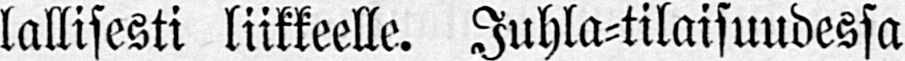lallisesti liikkeelle. Juhla-tilaisuudessa
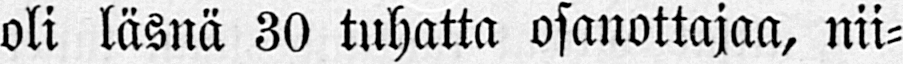oli läsnä 30 tuhatta osanottajaa, nii-
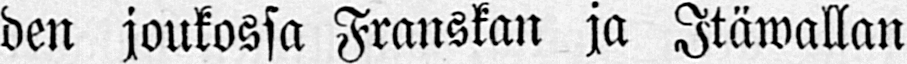den joukossa Franskan ja Itäwallan
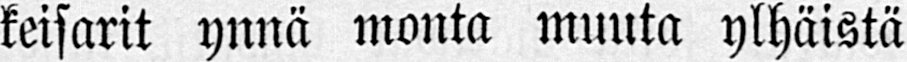keisarit ynnä monta muuta ylhäistä
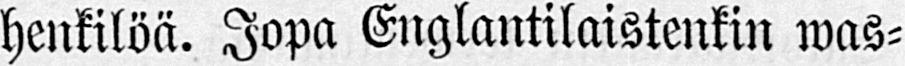henkilöä. Jopa Englantilaistenkin was-
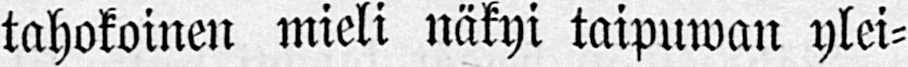tahokoinen mieli näkyi taipuwan ylei-
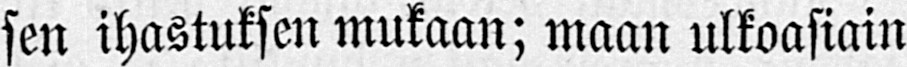sen ihastuksen mukaan; maan ulkoasiain
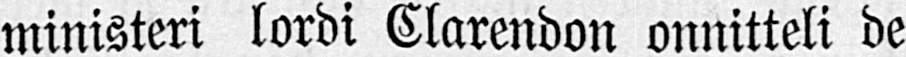ministeri lordi Clarendon onnitteli de
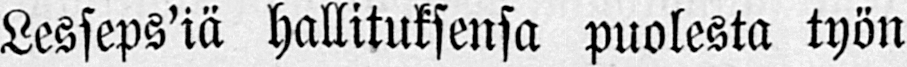Lesseps'iä hallituksensa puolesta työn
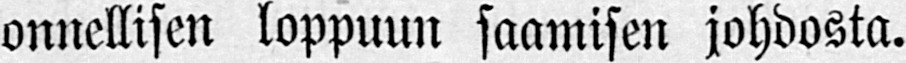onnellisen loppuun saamisen johdosta.
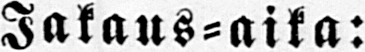Jakaus-aika:
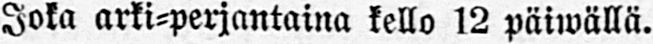Joka arki-perjantaina kello 12 päiwällä.
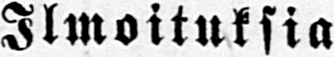Ilmoituksia
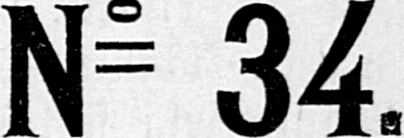№ 34.
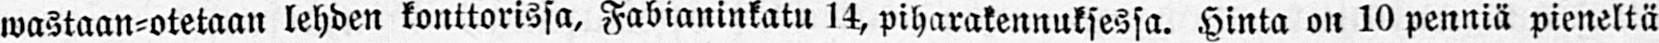wastaan-otetaan lehden konttorissa, Fabianinkatu 14, piharakennuksessa. Hinta on 10 penniä pieneltä
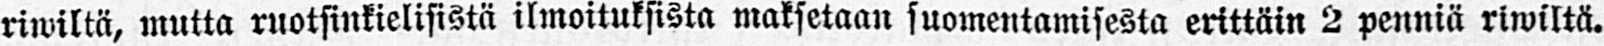riwiltä, mutta ruotsinkielisistä ilmoituksista maksetaan suomentamisesta erittäin 2 penniä riwiltä.
